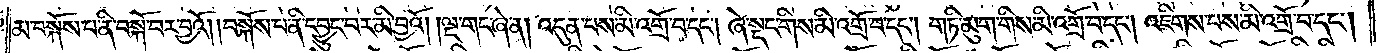མ་བསྐོས་པ་ནི་བསྐོ་བར་བྱའོ། །བསྐོས་པ་ནི་དབྱུང་བར་མི་བྱའོ། །ལྔ་གང་ཞེ་ན། འདུན་པས་མི་འགྲོ་བ་དང༌། ཞེ་སྡང་གིས་མི་འགྲོ་བ་དང༌། གཏི་མུག་གིས་མི་འགྲོ་བ་དང༌། འཇིགས་པས་མི་འགྲོ་བ་དང༌།
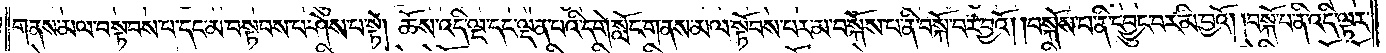གནས་མལ་བསྟབས་པ་དང་མ་བསྟབས་པ་ཤེས་པ་སྟེ། ཆོས་འདི་ལྔ་དང་ལྡན་པའི་དགེ་སློང་གནས་མལ་སྟོབས་པར་མ་བསྐོས་པ་ནི་བསྐོ་བར་བྱའོ། །བསྐོས་པ་ནི་དབྱུང་བར་མི་བྱའོ། །བསྐོ་པ་ནི་འདི་ལྟར་
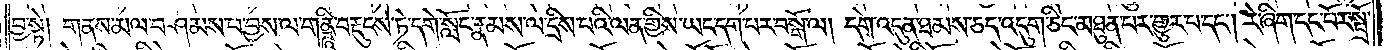བྱ་སྟེ། གནས་མལ་བཤམས་པ་བྱས་ལ་གཎྜཱི་བརྡུངས་ཏེ་དགེ་སློང་རྣམས་ལ་དྲིས་པའི་ལན་གྱིས་ཡང་དག་པར་བསྒོ་ལ། དགེ་འདུན་ཐམས་ཅད་འདུག་ཅིང་མཐུན་པར་གྱུར་པ་དང༌། རེ་ཞིག་དང་པོར་སྤྲོ་
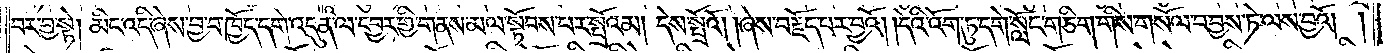བར་བྱ་སྟེ། མིང་འདི་ཞེས་བྱ་བ་ཁྱོད་དགེ་འདུན་ལ་དབྱར་གྱི་གནས་མལ་སྟོབས་པར་སྤྲོའམ། དེས་སྤྲོའོ། །ཞེས་བརྗོད་པར་བྱའོ། །དེའི་འོག་ཏུ་དགེ་སློང་གཅིག་གིས་གསོལ་བ་བྱས་ཏེ་ལས་བྱའོ༎
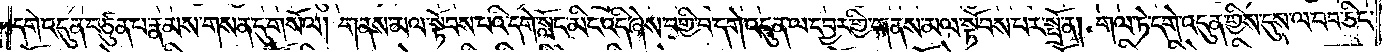དགེ་འདུན་བཙུན་པ་རྣམས་གསན་དུ་གསོལ། གནས་མལ་སྟོབས་པའི་དགེ་སློང་མིང་འདི་ཞེས་བགྱི་བ་དགེ་འདུན་ལ་དབྱར་གྱི་གནས་མལ་སྟོབས་པར་སྤྲོ་ན། གལ་ཏེ་དགེ་འདུན་གྱིས་དུས་ལ་བབ་ཅིང་
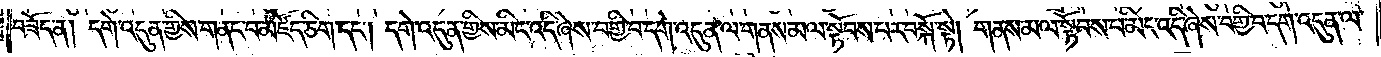བཟོད་ན། དགེ་འདུན་གྱིས་གནང་བ་མཛོད་ཅིག་དང༌། དགེ་འདུན་གྱིས་མིང་འདི་ཞེས་བགྱི་བ་དགེ་འདུན་ལ་གནས་མལ་སྟོབས་པར་བསྐོ་སྟེ། གནས་མལ་སྟོབས་པ་མིང་འདི་ཞེས་བགྱི་བ་དགེ་འདུན་ལ་
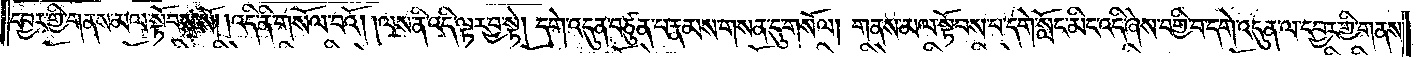དབྱར་གྱི་གནས་མལ་སྟོབས་སོ། །འདི་ནི་གསོལ་བའོ། །ལས་ནི་འདི་ལྟར་བྱ་སྟེ། དགེ་འདུན་བཙུན་པ་རྣམས་གསན་དུ་གསོལ། གནས་མལ་སྟོབས་པ་དགེ་སློང་མིང་འདི་ཞེས་བགྱི་བ་དགེ་འདུན་ལ་དབྱར་གྱི་གནས་
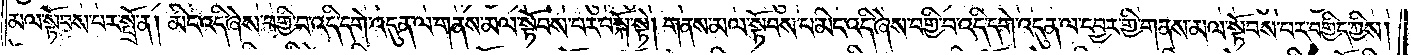མལ་སྟོབས་པར་སྤྲོ་ན། མིང་འདི་ཞེས་བགྱི་བ་འདི་དགེ་འདུན་ལ་གནས་མལ་སྟོབས་པར་བསྐོ་སྟེ། གནས་མལ་སྟོབས་པ་མིང་འདི་ཞེས་བགྱི་བ་འདི་དགེ་འདུན་ལ་དབྱར་གྱི་གནས་མལ་སྟོབས་པར་བགྱིད་ཀྱིས།
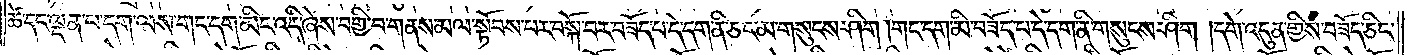ཚེ་དང་ལྡན་པ་དག་ལས་གང་དག་མིང་འདི་ཞེས་བགྱི་བ་གནས་མལ་སྟོབས་པར་བསྐོ་བར་བཟོད་པ་དེ་དག་ནི་ཅང་མ་གསུངས་ཤིག །གང་དག་མི་བཟོད་པ་དེ་དག་ནི་གསུངས་ཤིག །དགེ་འདུན་གྱིས་བཟོད་ཅིང་
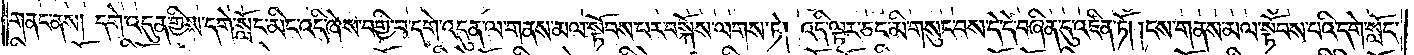གནང་ནས། དགེ་འདུན་གྱིས་དགེ་སློང་མིང་འདི་ཞེས་བགྱི་བ་དགེ་འདུན་ལ་གནས་མལ་སྟོབས་པར་བསྐོས་ལགས་ཏེ། འདི་ལྟར་ཅང་མི་གསུང་བས་དེ་དེ་བཞིན་དུ་འཛིན་ཏོ། །ངས་གནས་མལ་སྟོབས་པའི་དགེ་སློང་
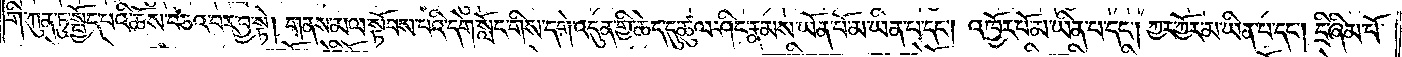གི་ཀུན་ཏུ་སྤྱོད་པའི་ཆོས་བཅའ་བར་བྱ་སྟེ། གནས་མལ་སྟོབས་པའི་དགེ་སློང་གིས་དགེ་འདུན་གྱི་ཆེད་དུ་ཚུལ་ཤིང་རྣམས་ཡོན་པོ་མ་ཡིན་པ་དང༌། འཁྱོར་པོ་མ་ཡིན་པ་དང༌། ཀྱར་ཀྱོར་མ་ཡིན་པ་དང༌། དྲི་ཞིམ་པོ་
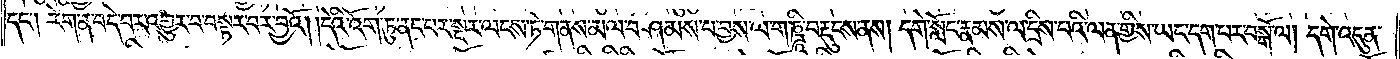དང༌། རེག་ན་བདེ་བར་འགྱུར་བ་བསྟར་བར་བྱའོ། །དེའི་འོག་ཏུ་ནང་པར་སྔར་ལངས་ཏེ་གནས་མལ་བཤམས་པ་བྱས་ལ་གཎྜཱི་བརྡུངས་ནས། དགེ་སློང་རྣམས་ལ་དྲིས་པའི་ལན་གྱིས་ཡང་དག་པར་བསྒོ་ལ། དགེ་འདུན་
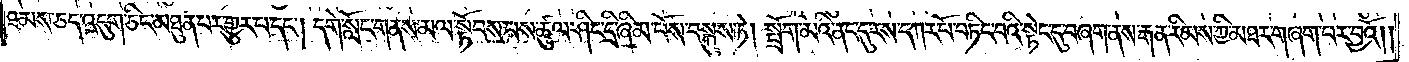ཐམས་ཅད་འདུག་ཅིང་མཐུན་པར་གྱུར་པ་དང༌། དགེ་སློང་གནས་མལ་སྟོབས་པས་ཚུལ་ཤིང་དྲི་ཞིམ་པོས་བསྐུས་ཏེ། སྤྲོག་མའི་ནང་དུ་རས་དཀར་པོ་བཏིང་བའི་སྟེང་དུ་བཞག་ནས་རྒན་རིམས་ཀྱི་མཐར་གཞག་པར་བྱའོ༎
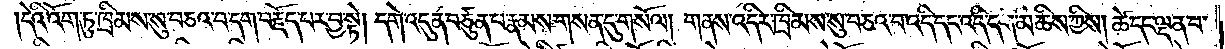དེའི་འོག་ཏུ་ཁྲིམས་སུ་བཅའ་བ་དག་བརྗོད་པར་བྱ་སྟེ། དགེ་འདུན་བཙུན་པ་རྣམས་གསན་དུ་གསོལ། གནས་འདིར་ཁྲིམས་སུ་བཅའ་བ་འདི་དང་འདི་དག་མཆིས་ཀྱིས། ཚེ་དང་ལྡན་པ་
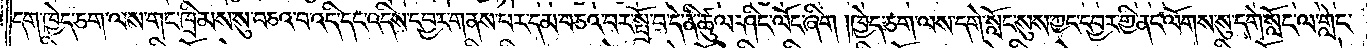དག་ཁྱེད་ཅག་ལས་གང་ཁྲིམས་སུ་བཅའ་བ་འདི་དང་འདིས་དབྱར་གནས་པར་དམ་བཅའ་བར་སྤྲོ་བ་དེ་ནི་ཚུལ་ཤིང་ལོང་ཞིག །ཁྱེད་ཅག་ལས་དགེ་སློང་སུས་ཀྱང་དབྱར་གྱི་ནང་ལོགས་སུ་དགེ་སློང་ལ་གླེང་
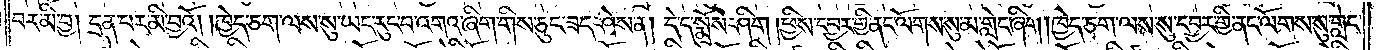བར་མི་བྱ། དྲན་པར་མི་བྱའོ། །ཁྱེད་ཅག་ལས་སུ་ཡང་རུང་བ་འགའ་ཞིག་གིས་ཅུང་ཟད་ཤེས་ན། དེ་ད་སྨོས་ཤིག །ཕྱིས་དབྱར་གྱི་ནང་ལོགས་སུ་མ་གླེང་ཞིག །ཁྱེད་ཅག་ལས་སུ་དབྱར་གྱི་ནང་ལོགས་སུ་གླེང་
